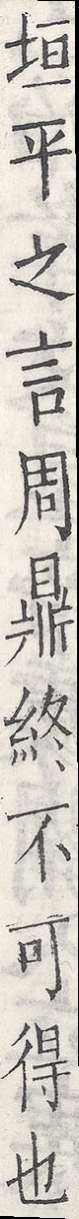垣平之言周鼎終不可得也
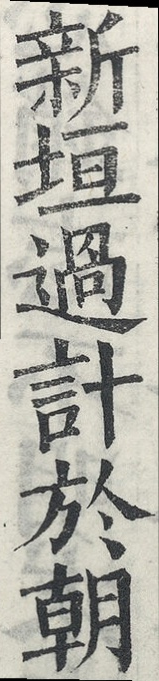新垣過計於朝
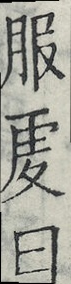服虔曰
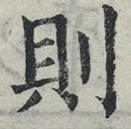則
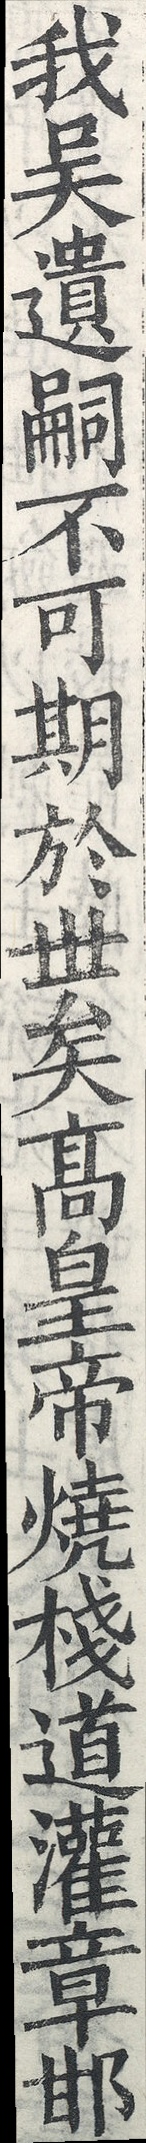我吳遺嗣不可期於世矣高皇帝燒棧道灌章邯
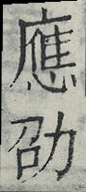應劭
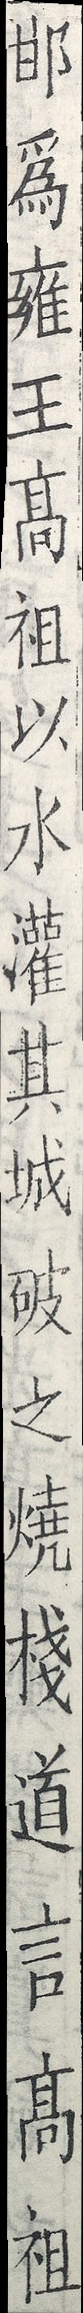邯為雍王高祖以水灌其城破之燒棧道言高祖
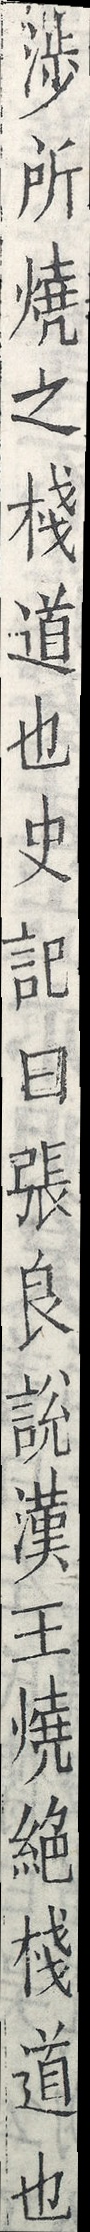涉所燒之棧道也史記曰張良說漢王燒絕棧道也
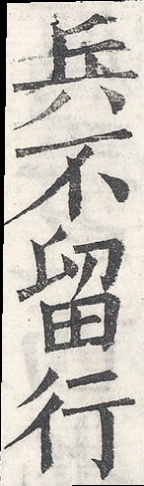兵不留行
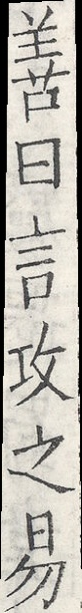善曰言攻之易
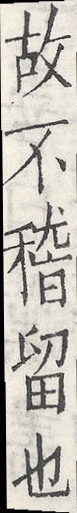故不稽留也
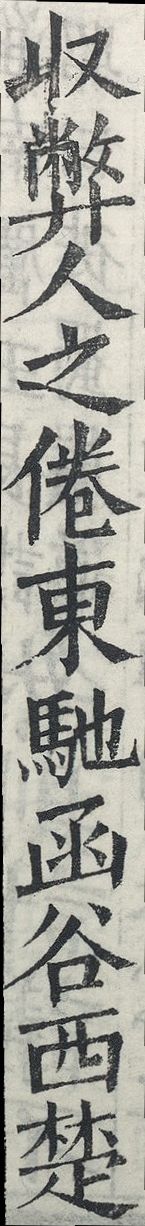收弊人之倦東馳函谷西楚
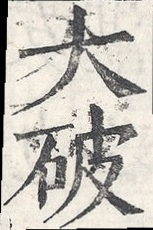大破
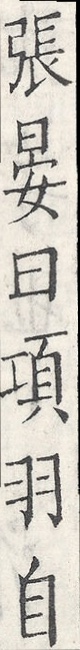張晏曰項羽自
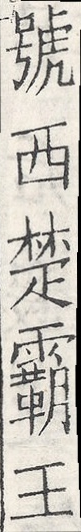號西楚霸王
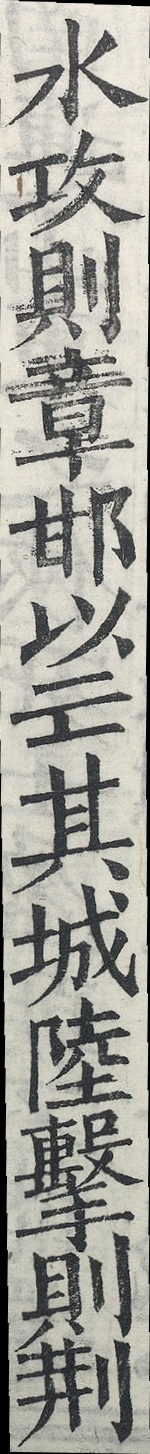水攻則章邯以亡其城陸擊則荊
